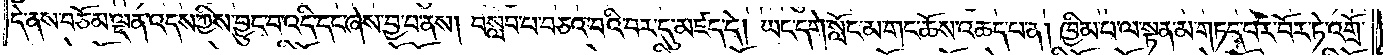དེ་ནས་བཅོམ་ལྡན་འདས་ཀྱིས་བྱུང་བ་འདི་དང་ཞེས་བྱ་བ་ནས། བསླབ་པ་བཅའ་བའི་བར་དུ་མཛད་དེ། ཡང་དགེ་སློང་མ་གང་ཆོས་འཆད་པ་ན། ཁྱིམ་པ་ལ་སྟན་མ་གཏད་པར་བོར་ཏེ་འགྲོ་
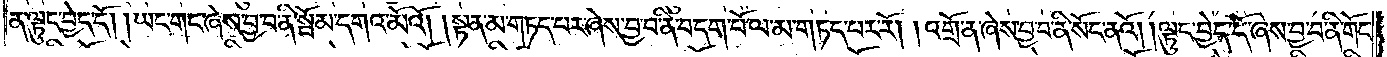ན་ལྟུང་བྱེད་དོ། །ཡང་གང་ཞེས་བྱ་བ་ནི་སྦོམ་དགའ་མོའོ། །སྟན་མ་གཏད་པར་ཞེས་བྱ་བ་ནི་བདག་པོ་ལ་མ་གཏད་པར་རོ། །འགྲོ་ན་ཞེས་བྱ་བ་ནི་སོང་ནའོ། །ལྟུང་བྱེད་དོ་ཞེས་བྱ་བ་ནི་གོང་
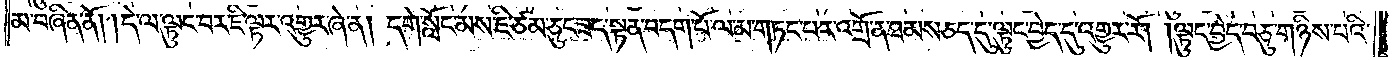མ་བཞིན་ནོ། །དེ་ལ་ལྟུང་བར་ཇི་ལྟར་འགྱུར་ཞེ་ན། དགེ་སློང་མས་ཇི་ཙམ་ཅུང་ཟད་སྟན་བདག་པོ་ལ་མ་གཏང་བར་འགྲོ་ན་ཐམས་ཅད་དུ་ལྟུང་བྱེད་དུ་འགྱུར་རོ། །ལྟུང་བྱེད་བཅུ་གཉིས་པའི་
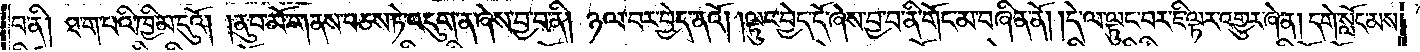བ་ནི། ཐ་ག་པའི་ཁྱིམ་དུའོ། །ནུབ་མོ་གནས་བཅས་ཏེ་འདུག་ན་ཞེས་བྱ་བ་ནི། ཉལ་བར་བྱེད་ནའོ། །ལྟུང་བྱེད་དོ་ཞེས་བྱ་བ་ནི་གོང་མ་བཞིན་ནོ། །དེ་ལ་ལྟུང་བར་ཇི་ལྟར་འགྱུར་ཞེ་ན། དགེ་སློང་མས་
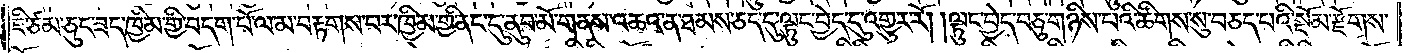ཇི་ཙམ་ཅུང་ཟད་ཁྱིམ་གྱི་བདག་པོ་ལ་མ་བརྟགས་པར་ཁྱིམ་གྱི་ནང་དུ་ནུབ་མོ་གནས་འཆའ་ན་ཐམས་ཅད་དུ་ལྟུང་བྱེད་དུ་འགྱུར་རོ། །ལྟུང་བྱེད་བཅུ་གཉིས་པའི་ཚིགས་སུ་བཅད་པའི་སྡོམ་རྫོགས་
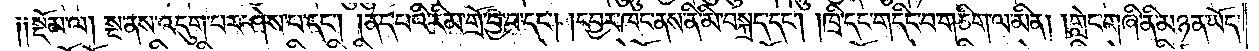༑༑སྡོམ་ལ། སྔ་ནས་འདུག་པར་ཤེས་པ་དང༌། །ནད་པའི་རིམ་གྲོ་བྱ་བ་དང༌། །དབྱར་ཁང་ནས་ནི་མི་བསྐྲད་དང༌། །ཁྲི་དང་གདིང་བ་གཅིག་ལ་མིན། །གླེང་གཞི་ནི་མཉན་ཡོད་
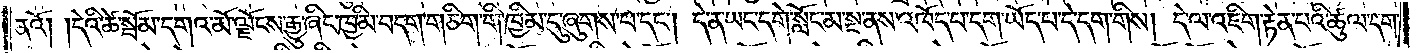ནའོ། །དེའི་ཚེ་སྦོམ་དགའ་མོ་ལྗོངས་རྒྱུ་ཞིང་ཁྱིམ་བདག་གཅིག་གི་ཁྱིམ་དུ་ཞུགས་པ་དང༌། དེ་ན་ཡང་དགེ་སློང་མ་སྔ་ནས་འཁོད་པ་དག་ཡོད་པ་དེ་དག་གིས། དེ་ལ་འཇིག་རྟེན་པའི་ཚུལ་དག་
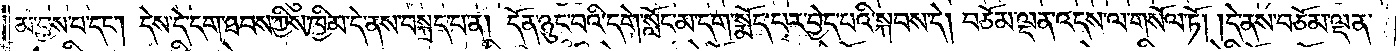མ་བྱས་པ་དང༌། དེས་དེ་དག་ཐབས་ཀྱིས་ཁྱིམ་དེ་ནས་བསྐྲད་པ་ན། དོན་ཉུང་བའི་དགེ་སློང་མ་དག་སྨོད་པར་བྱེད་པའི་སྐབས་དེ། བཅོམ་ལྡན་འདས་ལ་གསོལ་ཏོ། །དེ་ནས་བཅོམ་ལྡན་
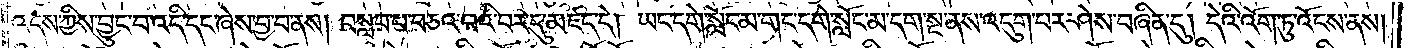འདས་ཀྱིས་བྱུང་བ་འདི་དང་ཞེས་བྱ་བ་ནས། བསླབ་པ་བཅའ་བའི་བར་དུ་མཛད་དེ། ཡང་དགེ་སློང་མ་གང་དགེ་སློང་མ་དག་སྔ་ནས་འདུག་པར་ཤེས་བཞིན་དུ། དེའི་འོག་ཏུ་འོངས་ནས།
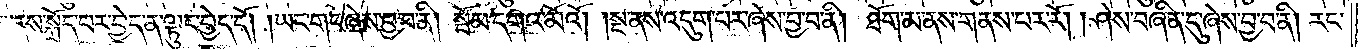ཁྱིམ་ནས་སྐྲོད་པར་བྱེད་ན་ལྟུང་བྱེད་དོ། །ཡང་གང་ཞེས་བྱ་བ་ནི། སྦོམ་དགའ་མོའོ། །སྔ་ནས་འདུག་པར་ཞེས་བྱ་བ་ནི། ཐོག་མ་ནས་གནས་པར་རོ། །ཤེས་བཞིན་དུ་ཞེས་བྱ་བ་ནི། རང་
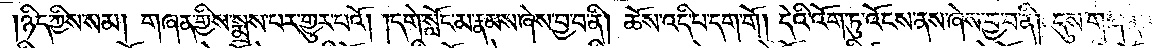།ཉིད་ཀྱིས་སམ། གཞན་གྱིས་སྨྲས་པར་གྱུར་པའོ། །དགེ་སློང་མ་རྣམས་ཞེས་བྱ་བ་ནི། ཆོས་འདི་པ་དག་གོ། །དེའི་འོག་ཏུ་འོངས་ནས་ཞེས་བྱ་བ་ནི། དུས་གཞན་
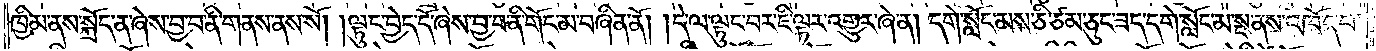ཁྱིམ་ནས་སྐྲོད་ན་ཞེས་བྱ་བ་ནི་གནས་ནས་སོ། །ལྟུང་བྱེད་དོ་ཞེས་བྱ་བ་ནི་གོང་མ་བཞིན་ནོ། །དེ་ལ་ལྟུང་བར་ཇི་ལྟར་འགྱུར་ཞེ་ན། དགེ་སློང་མས་ཅི་ཙམ་ཅུང་ཟད་དགེ་སློང་མ་སྔ་ནས་འཁོད་པ་
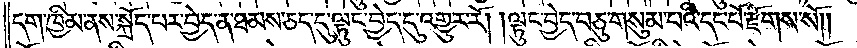དག་ཁྱིམ་ནས་སྐྲོད་པར་བྱེད་ན་ཐམས་ཅད་དུ་ལྟུང་བྱེད་དུ་འགྱུར་རོ། །ལྟུང་བྱེད་བཅུ་གསུམ་པའི་དང་པོ་རྫོགས་སོ༎
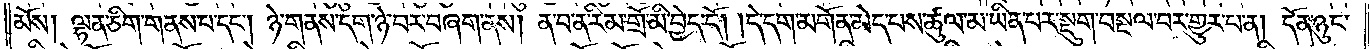མོས། ལྷན་ཅིག་གནས་པ་དང༌། ཉེ་གནས་དག་ཉེ་བར་བཞག་ནས། ན་བ་ན་རིམ་གྲོ་མི་བྱེད་དོ། །དེ་དག་མགོན་མེད་པས་ཚུལ་མ་ཡིན་པར་སྡུག་བསྔལ་བར་གྱུར་པ་ན། དོན་ཉུང་
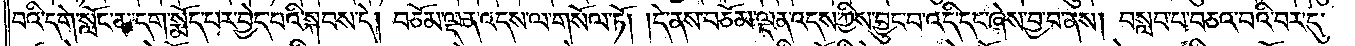བའི་དགེ་སློང་མ་དག་སྨོད་པར་བྱེད་པའི་སྐབས་དེ། བཅོམ་ལྡན་འདས་ལ་གསོལ་ཏོ། །དེ་ནས་བཅོམ་ལྡན་འདས་ཀྱིས་བྱུང་བ་འདི་དང་ཞེས་བྱ་བ་ནས། བསླབ་པ་བཅའ་བའི་བར་དུ་
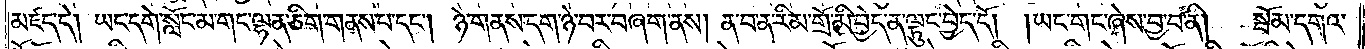མཛད་དེ། ཡང་དགེ་སློང་མ་གང་ལྷན་ཅིག་གནས་པ་དང༌། ཉེ་གནས་དག་ཉེ་བར་གཞག་ནས། ན་བ་ན་རིམ་གྲོ་མི་བྱེད་ན་ལྟུང་བྱེད་དོ། །ཡང་གང་ཞེས་བྱ་བ་ནི། སྦོམ་དགའ་
